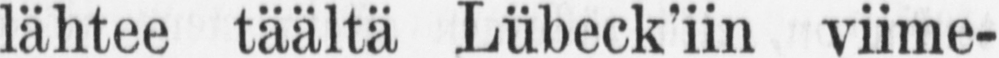lähtee täältä Lübeck'iin viime-
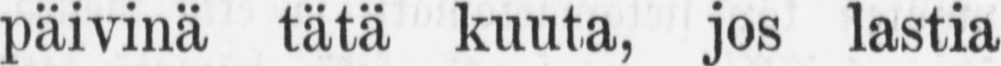päivinä tätä kuuta, jos lastia,
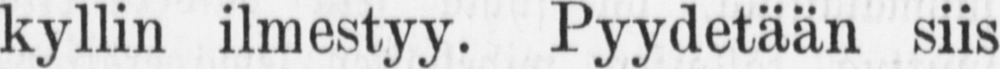kyllin ilmestyy. Pyydetään siis
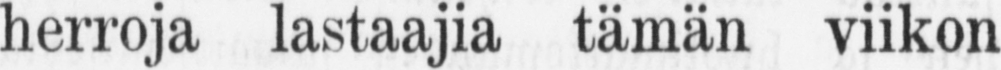herroja lastaajia tämän viikon
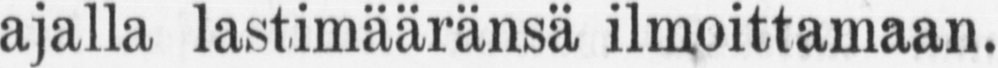ajalla lastimääränsä ilmoittamaan.
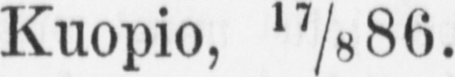Kuopio,17/886.
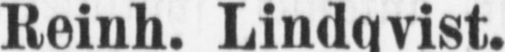Reinh. Lindqvist.
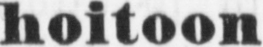Asuntoon ja hoitoon
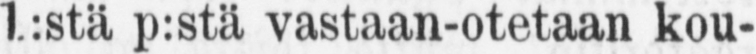syyskuun 1:stä p:sta vastaan-otetaan kou-
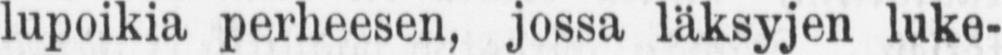lupoikia, perheesen, luke-
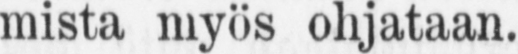mista, myös ohjataan.
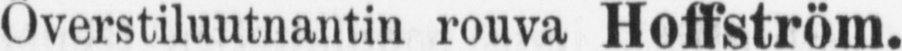Ö verstiluutnantin rouva Hoffström.
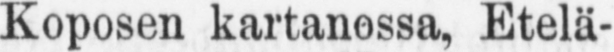Koposen kartanossa, Etelä-
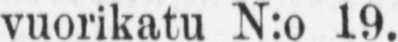vuorikatu N:o 19.
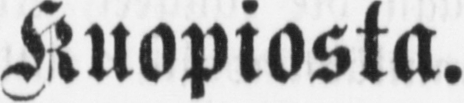Kuopiosta.
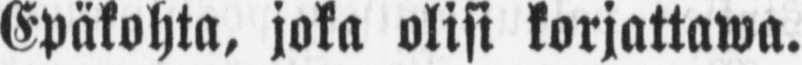Epäkohta, joka olisi korjattawa.
